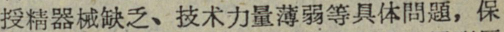授精器械缺乏、技术力量薄弱等具体問題，保
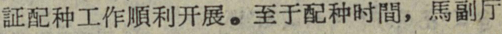証配种工作順利开展。至于配种时間，馬副厅
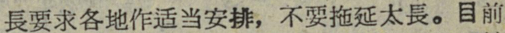長要求各地作适当安排，不要拖延太長。目前
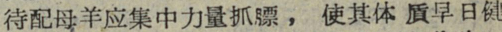待配母羊应集中力量抓膘，使其体貭早日健
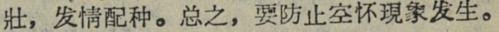壯，发情配种。总之，要防止空怀現象发生。
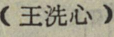（工洗心）
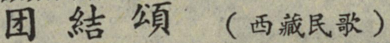团 結 頌 （西藏民歌）
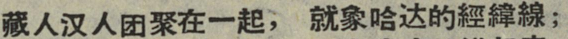藏人汉人团聚在一起，就象哈达的經緯線；
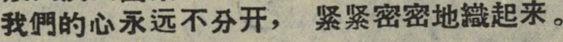我們的心永远不分开，紧紧密密地織起来。
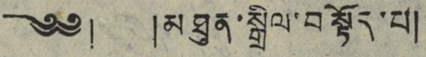༄༅། །མཐུན་སྒྲིལ་བསྟོད་པ།
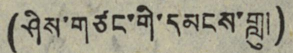(ཤིས་གཙང་གི་དམངས་གླུ།)
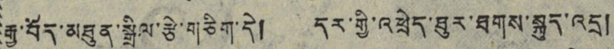རྒྱ་བོད་མཐུན་སྒྲིལ་རྩེ་གཅིག་དེ། དར་གྱི་འཕྲེད་ཐུར་ཐགས་སྐུད་འདྲ།
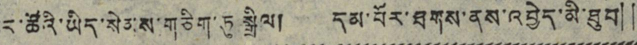ང་ཚོའི་ཡིད་སེན་ས་གཅིག་ཏུ སྒྲིལ། དམ་པོར་ཐགས་ནས་འབྱེད་མི་ཐུབ༎
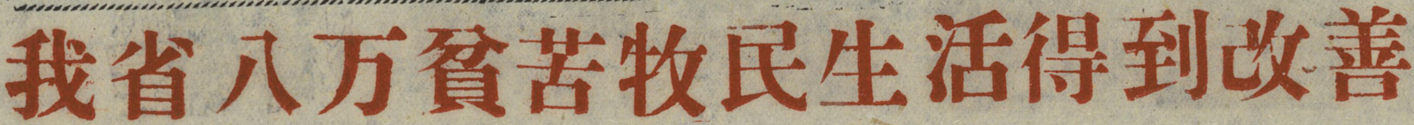我省八万貧苦牧民生活得到改善
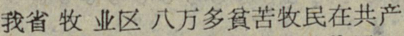我省牧业区八万多貧苦牧民在共产
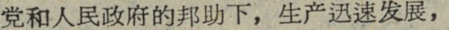党和人民政府的邦助下，生产迅速发展，
